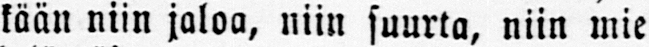kään niin jaloa, niin suurta, niin mie-
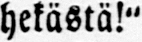hekästä!"
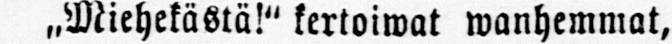˶Miehekästä!" kertoiwat wanhemmat,
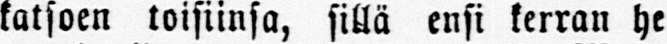katsoen toisiinsa, sillä ensi kerran he
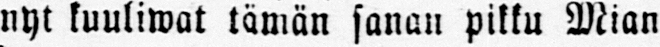nyt kuuliwat tämän sanan pikku Mian
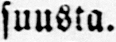suusta.
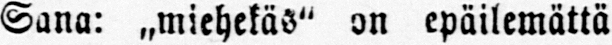Sana: ˶miehekäs" on epäilemättä
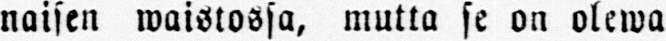naisen waistossa, mutta se on olewa
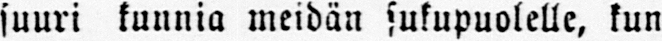suuri kunnia meidän sukupuolelle, kun
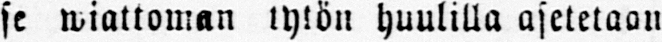se wiattoman tytön huulilla asetetaan
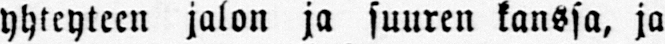yhteyteen jalon ja suuren kanssa, ja
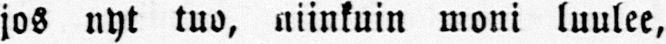jos nyt tuo, niinkuin moni luulee,
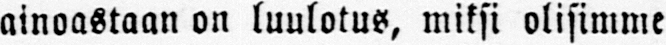ainoastaan on luulotus, miksi olisimme
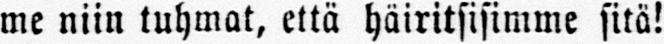me niin tuhmat, että häiritsisimme sitä!
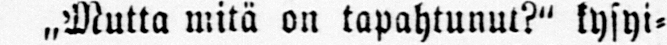˶Mutta mitä on tapahtunut?" kysyi-
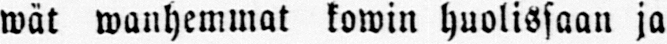wät wanhemmat kowin huolissaan ja
